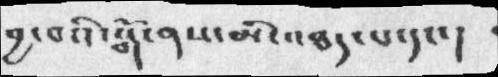བྱ་བའི་སྒོ་ནས་མི་འཐད་པ་དང་། །
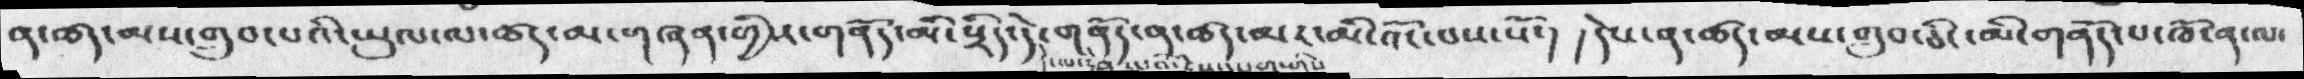ན་ཚད་མས་གྲུབ་པའི་ཡུལ་ལ་ཚད་མ་གཞན་གྱིས་གནོད་མི་སྲིད་དེ་གནོད་ན་ཚད་མར་མི་འོང་བས་སོ་།   །དེས་ན་ཚད་མས་གྲུབ་ཅིང་མི་གནོད་པ་ཁོ་ན་ལ་
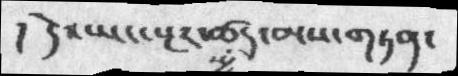། དེ་ཡང་སྔར་ཚད་མས་གཏན་
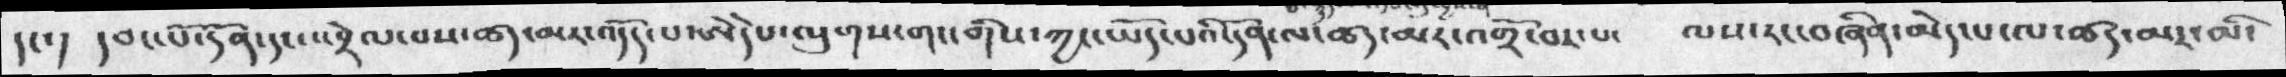དང་།  དབང་པོ་དོན་དང་འབྲེལ་པས་ཚད་མར་འདོད་པ་ཨེདེཔ་ལུགས་གང་གིས་ཀྱང་ཡོད་པའི་དོན་ལ་ཚད་མར་འགྲོ་བར་པ་    ལས་རང་བཞིན་མེད་པ་ལ་ཚད་མར་མི་
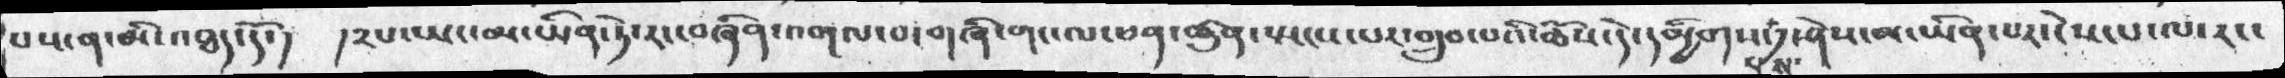པས་ན་མི་འཐད་དོ་།   །རས་ཡང་མ་ཡིན་ཏེ་རང་བཞིན་འགལ་བ་གཞི་གང་ལ་ཕན་ཚུན་སྤངས་པར་གྲུབ་པའི་ཆོས་དེ་དམྱིགས་པ་དུས་ཤེས་མ་ཡིན་པར་ངེས་པ་རང་
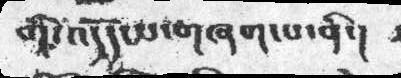གི་འདོད་པ་གཞག་པ་ནི་།
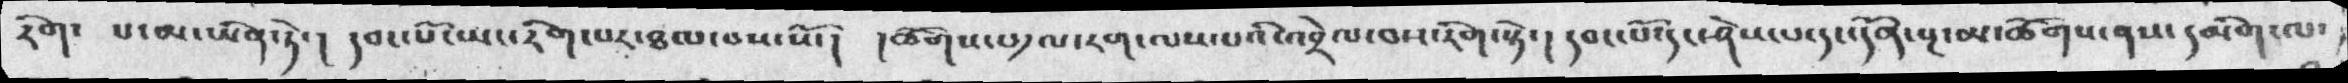རིག་  པ་མ་ཡིན་ཏེ་།  དབང་པོ་ཡང་རིག་པར་ཐལ་བས་སོ་།  །ཚོགས་པ༡ལ་རག་ལས་པའི་འབྲེལ་བས་རིག་སྟེ་། དབང་པོ་དང་ཤེས་པ་དང་དོན་སྔ་མ་ཚོགས་ནས་དམིག་ལ་
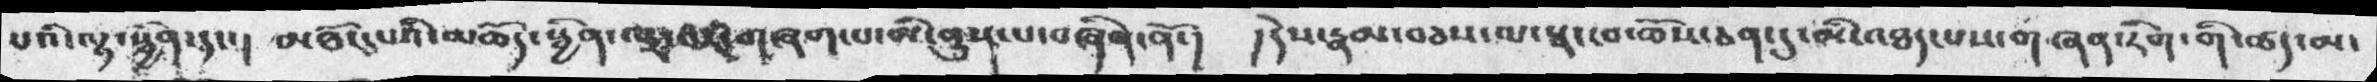པའི་ལྟ་སྦྱིན་དང་།   མཐོང་པའི་མཆོད་སྦྱིན་ལྟ་བར་གཞག་པ་མི་ནུས་པ་བཞིན་ནོ་།  ། དེས་རྣམ་བཅས་ལ་སྣང་བ་ཆོས་ཅན་དུ་མི་འཐད་པས་གཞན་རིག་གི་ཚད་མ་
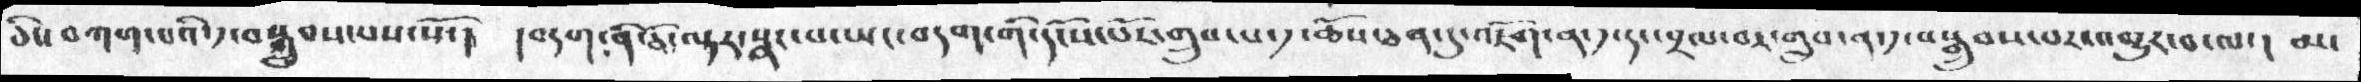ཅིང་བཀག་པའི་༡་བསྒྲུབ་པས་སོ་།  །བདག་ནི་ཅི་ལྟར་སྣང་པ་ཡང་བདག་གི་དངོས་པོར་གྲུབ་པ་༡་ཆོས་ཅན་དུ་འཇོག་ན་༡་དང་བྲལ་བར་གྲུབ་ན་༡་བསྒྲུབས་པར་འགྱུར་བ་ལ་། མ་
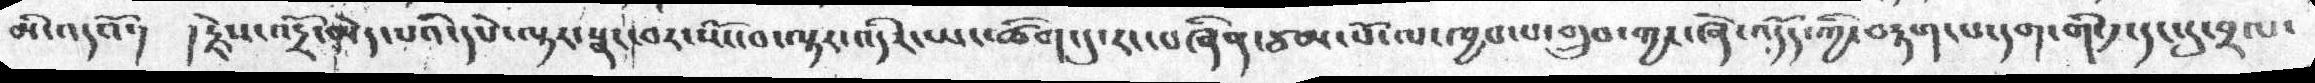མི་འདའོ་།  །རྗེས་འདྲོ་མེད་པའི་དཔེ་ལྟར་སྣང་བར་སོང་བ་ལྟར་འདིར་ཡང་ཚོག་དུ་རང་བཞིན་ཙམ་པོ་ལ་ཁྱབ་པ་གྲུབ་ཀྱང་ཞེ་འདོད་ཀྱི་བརྟག་པ་དག་གི་༡་དང་དུ་བྲལ་
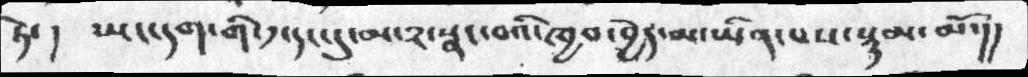ཏེ་།  ཡང་དག་གི་༡་དང་དུ་མ་༢་སྣང་བའི་ཁྱབ་བྱེད་མ་ཡིན་པས་སྙམ་མོ་།།
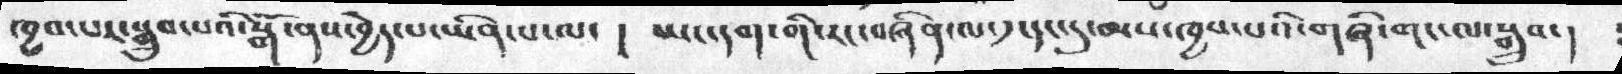ཁྱབ་པར་སྒྲུབ་པའི་སྒོ་ནས་བྱེད་པ་ཡིན་པ་ལ་ ། ཡང་དག་གི་རང་བཞིན་ལ་༡་དང་དུ་མས་ཁྱབ་པའི་གཞི་གང་ལ་སྒྲུབ་།
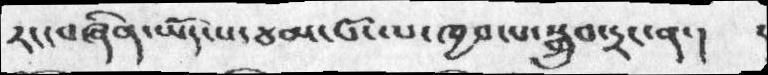རང་བཞིན་ཡོད་པ་ཙམ་པོ་ལ་ཁྱབ་པ་སྒྲུབ་དྲང་ན་།
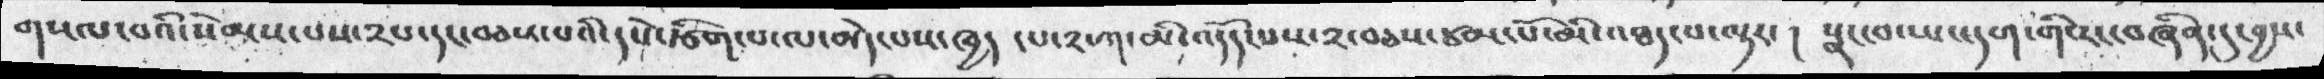གསལ་བའི་སེམས་པས་༢པ་དང་བཅས་པའི་དཔེ་རྩིག་པ་ལ་མེད་པས་ཁྱད ་པ་༢་ཀ་མི་འདོད་པས་༢་བཅས་ཙམ་པོ་མི་འཐད་པ་ལྟར་། སྣང་བ་ཡང་དག་གི་རང་བཞིན་དུ་བྱས་
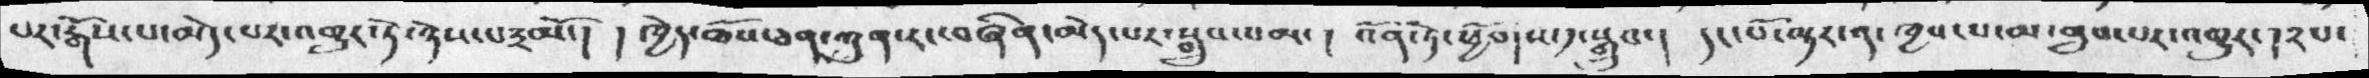པར་རྒོས་པ་མེད་པར་འགྱུར་ཏེ་ཉེས་༣མོ་། ། ཁྱེད་ཆོས་ཅན་ཀུན་རང་བཞིན་མེད་པར་སྒྲུབ་བམ་། འོན་ཏེ་ཕྱོགས་༡་སྒྲུབ་། དང་པོ་ལྟར་ན་ཁྱབ་པ་མ་གྲུབ་པར་འགྱུར་།༢པ་
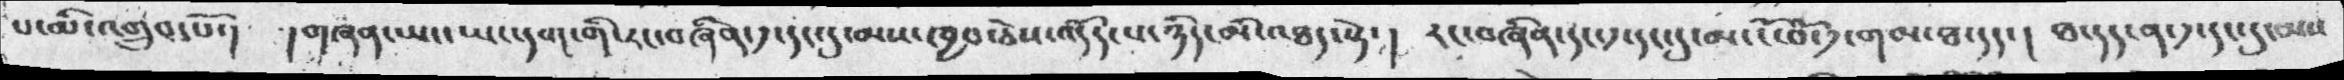པ་མི་འགྲུབ་པོ་།  །གཞན་ཡང་ཡང་དག་གི་རང་བཞིན་༡་དང་དུ་མས་ཁྱབ་ཅེས་འདོད་པ་ཉིད་མི་འཐད་སྟེ་། རང་བཞིན་དང་༡་དང་དུ་མ་ངོ་བོ་༡་གམ་ཐ་དད་།  ཐ་དད་ན་༡་དང་དུ་མས
